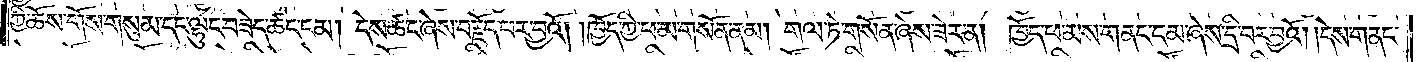ཀྱི་ཆོས་གོས་གསུམ་དང་ལྷུང་བཟེད་ཚང་ངམ། དེས་ཚང་ཞེས་བརྗོད་པར་བྱའོ། །ཁྱོད་ཀྱི་ཕ་མ་གསོན་ནམ། གལ་ཏེ་གསོན་ཞེས་ཟེར་ན། ཁྱོད་ཕ་མས་གནང་ངམ་ཞེས་དྲི་བར་བྱའོ། །དེས་གནང་
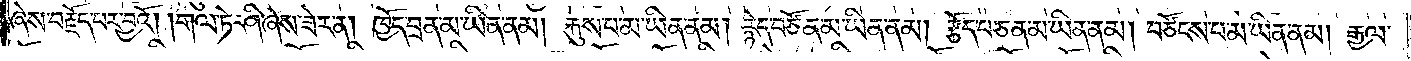ཞེས་བརྗོད་པར་བྱའོ། །གལ་ཏེ་ཤི་ཞེས་ཟེར་ན། ཁྱོད་བྲན་མ་ཡིན་ནམ། རྐུས་པ་མ་ཡིན་ནམ། རྙེད་བཙོན་མ་ཡིན་ནམ། རྩོད་པ་ཅན་མ་ཡིན་ནམ། བཙོངས་པ་མ་ཡིན་ནམ། རྒྱལ་
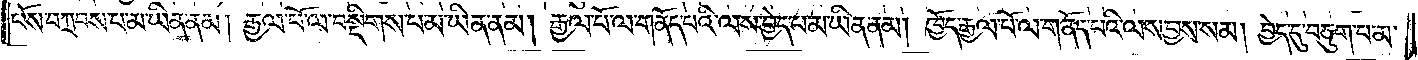པོས་བཀྲབས་པ་མ་ཡིན་ནམ། རྒྱལ་པོ་ལ་བསྡིགས་པ་མ་ཡིན་ནམ། རྒྱལ་པོ་ལ་གནོད་པའི་ལས་བྱེད་པ་མ་ཡིན་ནམ། ཁྱོད་རྒྱལ་པོ་ལ་གནོད་པའི་ལས་བྱས་སམ། བྱེད་དུ་བཅུག་པ་མ་
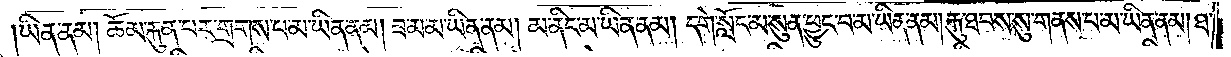ཡིན་ནམ། ཆོམ་རྐུན་པར་གྲགས་པ་མ་ཡིན་ནམ། ཟ་མ་མ་ཡིན་ནམ། མ་ནིང་མ་ཡིན་ནམ། དགེ་སློང་མ་སུན་ཕྱུང་བ་མ་ཡིན་ནམ། རྐུ་ཐབས་སུ་གནས་པ་མ་ཡིན་ནམ། ཐ་
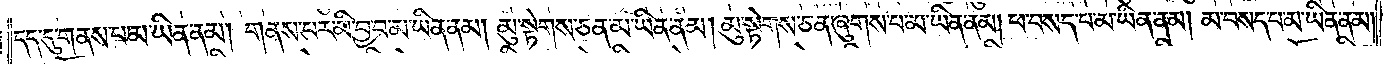དད་དུ་གནས་པ་མ་ཡིན་ནམ། གནས་པར་མི་བྱ་བ་མ་ཡིན་ནམ། མུ་སྟེགས་ཅན་མ་ཡིན་ནམ། མུ་སྟེགས་ཅན་ཞུགས་པ་མ་ཡིན་ནམ། ཕ་བསད་པ་མ་ཡིན་ནམ། མ་བསད་པ་མ་ཡིན་ནམ།
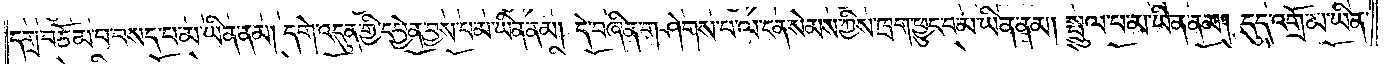དགྲ་བཅོམ་པ་བསད་པ་མ་ཡིན་ནམ། དགེ་འདུན་གྱི་དབྱེན་བྱས་པ་མ་ཡིན་ནམ། དེ་བཞིན་གཤེགས་པ་ལ་ངན་སེམས་ཀྱིས་ཁྲག་ཕྱུང་བ་མ་ཡིན་ནམ། སྤྲུལ་པ་མ་ཡིན་ནམ། དུད་འགྲོ་མ་ཡིན་
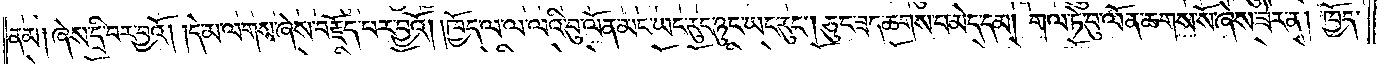ནམ། ཞེས་དྲི་བར་བྱའོ། །དེ་མ་ལགས་ཞེས་བརྗོད་པར་བྱའོ། །ཁྱོད་ལ་ལ་ལའི་བུ་ལོན་མང་ཡང་རུང་ཉུང་ཡང་རུང༌། ཅུང་ཟད་ཆགས་བ་མེད་དམ། གལ་ཏེ་བུ་ལོན་ཆགས་སོ་ཞེས་ཟེར་ན། ཁྱོད་
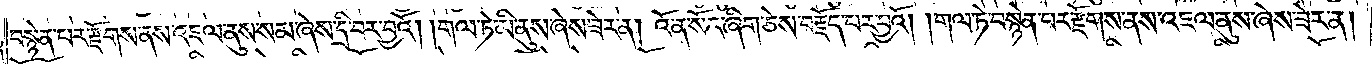བསྙེན་པར་རྫོགས་ནས་འཇལ་ནུས་སམ་ཞེས་དྲི་བར་བྱའོ། །གལ་ཏེ་མི་ནུས་ཞེས་ཟེར་ན། འོ་ན་སོང་ཞིག་ཅེས་བརྗོད་པར་བྱའོ། །གལ་ཏེ་བསྙེན་པར་རྫོགས་ནས་འཇལ་ནུས་ཞེས་ཟེར་ན།
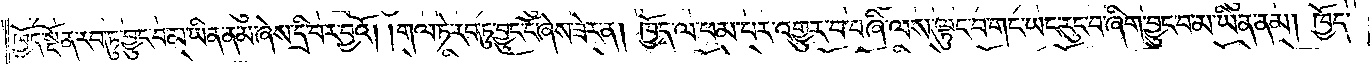ཁྱོད་སྔོན་རབ་ཏུ་བྱུང་བ་མ་ཡིན་ནམ་ཞེས་དྲི་བར་བྱའོ། །གལ་ཏེ་རབ་ཏུ་བྱུང་ངོ་ཞེས་ཟེར་ན། ཁྱོད་ལ་ཕམ་པར་འགྱུར་བ་བཞི་ལས་ལྟུང་བ་གང་ཡང་རུང་བ་ཞིག་བྱུང་བ་མ་ཡིན་ནམ། ཁྱོད་
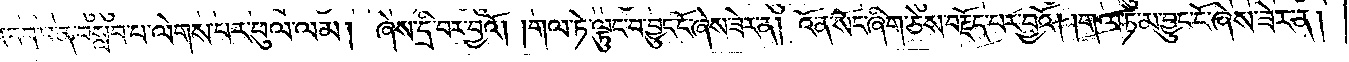འབབ་པ་ན་བསླབ་པ་ལེགས་པར་ཕུལ་ལམ། ཞེས་དྲི་བར་བྱའོ། །གལ་ཏེ་ལྟུང་བ་བྱུང་ངོ་ཞེས་ཟེར་ན། འོ་ན་སོང་ཞིག་ཅེས་བརྗོད་པར་བྱའོ། །གལ་ཏེ་མ་བྱུང་ངོ་ཞེས་ཟེར་ན།
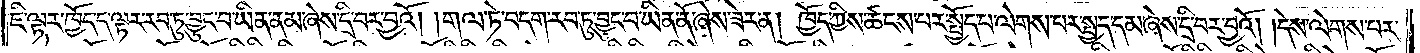ཇི་ལྟར་ཁྱོད་ད་ལྟར་རབ་ཏུ་བྱུང་བ་ཡིན་ནམ་ཞེས་དྲི་བར་བྱའོ། །གལ་ཏེ་བདག་རབ་ཏུ་བྱུང་བ་ཡིན་ནོ་ཞེས་ཟེར་ན། ཁྱོད་ཀྱིས་ཚངས་པར་སྤྱོད་པ་ལེགས་པར་སྤྱད་དམ་ཞེས་དྲི་བར་བྱའོ། །དེས་ལེགས་པར་
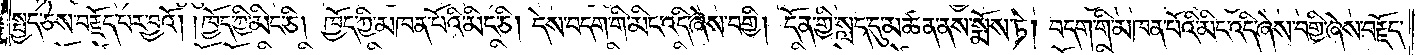སྤྱད་ཅེས་བརྗོད་པར་བྱའོ། །ཁྱོད་ཀྱི་མིང་ཅི། ཁྱོད་ཀྱི་མཁན་པོའི་མིང་ཅི། དེས་བདག་གི་མིང་འདི་ཞེས་བགྱི། དོན་གྱི་སླད་དུ་མཚན་ནས་སྨོས་ཏེ། བདག་གི་མཁན་པོའི་མིང་འདི་ཞེས་བགྱི་ཞེས་བརྗོད་
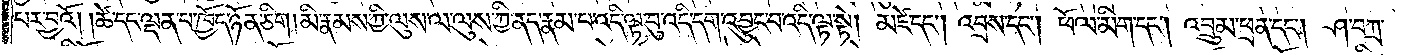པར་བྱའོ། །ཚེ་དང་ལྡན་པ་ཁྱོད་ཉོན་ཅིག། མི་རྣམས་ཀྱི་ལུས་ལ་ལུས་ཀྱི་ནད་རྣམ་པ་འདི་ལྟ་བུ་འདི་དག་འབྱུང་བ་འདི་ལྟ་སྟེ། མཛེ་དང༌། འབྲས་དང༌། ཕོལ་མིག་དང༌། འབྲུམ་ཕྲན་དང༌། ཤ་བཀྲ་
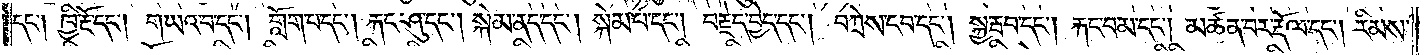དང༌། ཁྱི་རྔོ་དང༌། གཡའ་བ་དང༌། གློག་པ་དང༌། རྐང་ཤུ་དང༌། སྐེམ་ནད་དང༌། སྐེམ་པ་དང༌། བརྗེད་བྱེད་དང༌། བཀྲེས་ངབ་དང༌། སྐྱ་རྦབ་དང༌། རྐང་བམ་དང༌། མཚན་བར་རྡོལ་དང༌། རིམས་
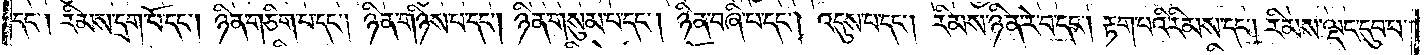དང༌། རིམས་དྲག་པོ་དང༌། ཉིན་གཅིག་པ་དང༌། ཉིན་གཉིས་པ་དང༌། ཉིན་གསུམ་པ་དང༌། ཉིན་བཞི་པ་དང༌། འདུས་པ་དང༌། རིམས་ཉིན་རེ་བ་དང༌། རྟག་པའི་རིམས་དང༌། རིམས་ལྡང་དུབ་པ་
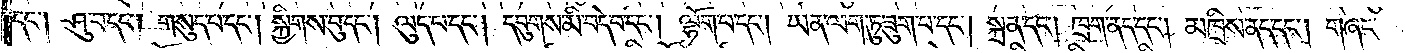དང༌། ཤུ་བ་དང༌། གསུད་པ་དང༌། སྐྱིགས་བུ་དང༌། ལུད་པ་དང༌། དབུགས་མི་བདེ་བ་དང༌། ལྷོག་པ་དང༌། ཡན་ལག་ཏུ་ཟུག་པ་དང༌། སྐྲན་དང༌། ཁྲག་ནད་དང༌། མཁྲིས་ནད་དང༌། གཞང་
